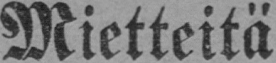Mietteitä
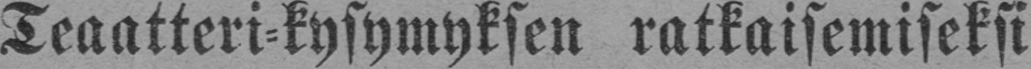Teaatteri-kysymyksen ratkaisemiseksi
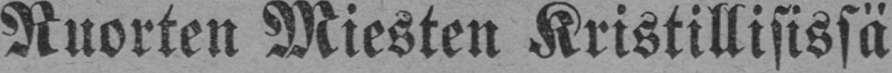Ruorten Miesten Kristillisissä
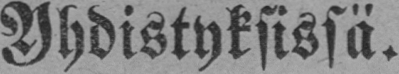Yhdistyksissä.
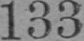133
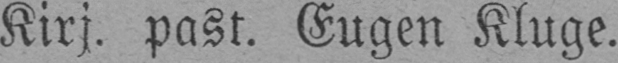Kirj. past. Eugen Kluge.
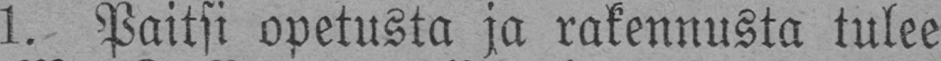1. paitsi opetusta ja rakennusta tulee
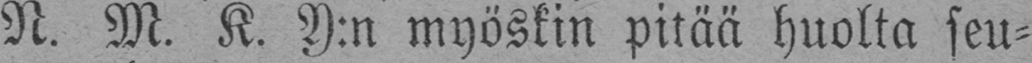N. M. K. Y:n myöskin pitää huolta seu-
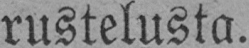rustelusta.
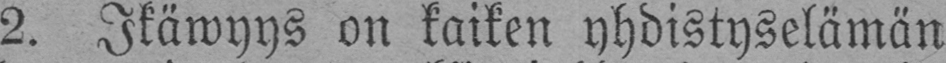2. Ikäwyys on kaiken yhdistyselämän
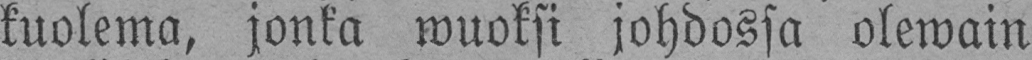kuolema, jonka wuoksi johdossa olewain
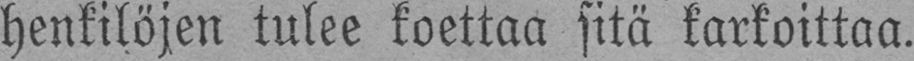henkilöjen tulee koettaa sitä karkoittaa.
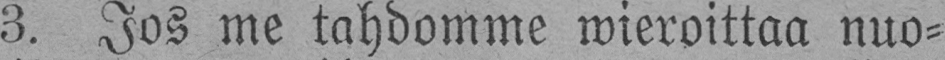3. Jos me tahdomme wieroittaa nuo-
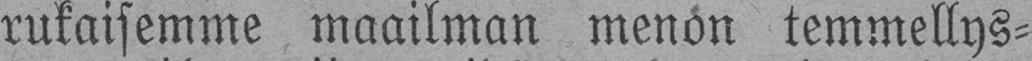rukaisemme maailman menon temmellys-
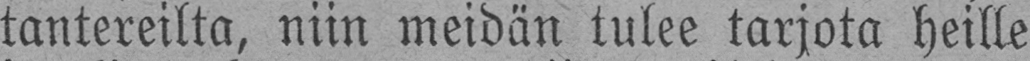tantereilta, niin meidän tulee tarjota heille
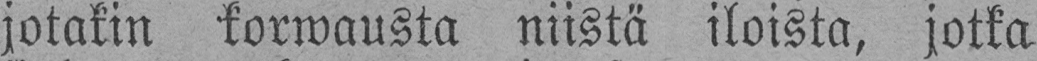jotakin korwausta niistä iloista, jotka
